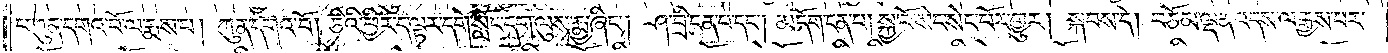པ་ཀུན་དགའ་བོ་ལ་རྨས་པ། ཀུན་དགའ་བོ། ཅིའི་ཕྱིར་ད་ལྟར་དགེ་སློང་དག་ལུས་རྨྱ་ཞིང༌། ཤ་བྲི་ངན་པ་དང༌། མདོག་ངན་པ། སྐྱ་བོ་སེང་སེང་པོར་གྱུར། སྐབས་དེ། བཅོམ་ལྡན་འདས་ལ་རྒྱས་པར་
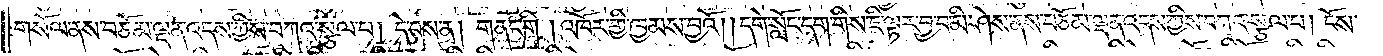གསོལ་ནས་བཅོམ་ལྡན་འདས་ཀྱིས་བཀའ་སྩལ་པ། དེ་བས་ན། གནང་གི། འཁོར་གྱི་ཁྱམས་བྱའོ། །དགེ་སློང་དག་གིས་ཇི་ལྟར་བྱ་བ་མི་ཤེས་ནས་བཅོམ་ལྡན་འདས་ཀྱིས་བཀའ་སྩལ་པ། ངོས་
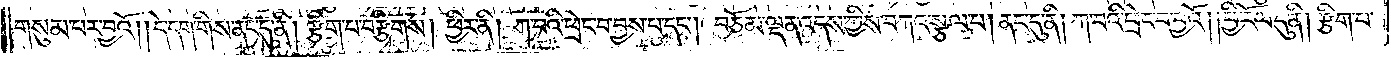གསུམ་པར་བྱའོ། །དེ་དག་གིས་ནང་དུ་ནི། རྩིག་པ་བརྩིགས། ཕྱིར་ནི། ཀ་བའི་ཕྲེང་བ་བྱས་པ་དང༌། བཅོམ་ལྡན་འདས་ཀྱིས་བཀའ་སྩལ་པ། ནང་དུ་ནི། ཀ་བའི་ཕྲེང་བ་བྱའོ། །ཕྱི་རོལ་དུ་ནི། རྩིག་པ་
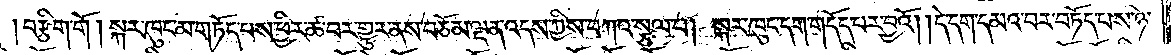བརྩིག་གོ །སྐར་ཁུང་མ་གཏོད་པས་ཕྱིར་ཚ་བར་གྱུར་ནས་བཅོམ་ལྡན་འདས་ཀྱིས་བཀའ་སྩལ་པ། སྐར་ཁུང་དག་གདོད་པར་བྱའོ། །དེ་དག་དམའ་བར་བཏོད་པས་ཉེ་
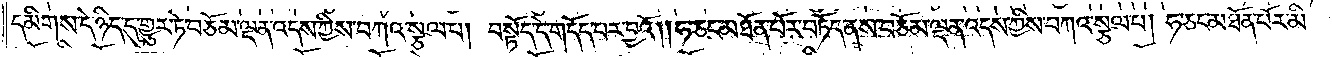དམིགས་དེ་ཉིད་དུ་གྱུར་ཏེ་བཅོམ་ལྡན་འདས་ཀྱིས་བཀའ་སྩལ་པ། བསྟོད་དེ་གདོད་པར་བྱའོ། །ཧ་ཅང་མཐོན་པོར་བཏོད་ནས་བཅོམ་ལྡན་འདས་ཀྱིས་བཀའ་སྩལ་པ། ཧ་ཅང་མཐོན་པོར་མི་
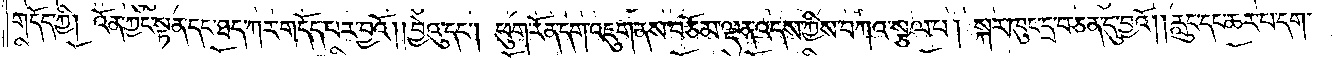གདོད་ཀྱི། འོན་ཀྱང་སྟན་དང་ཐད་ཀར་གདོད་པར་བྱའོ། །བྱེའུ་དང༌། ཕུག་རོན་དག་འཇུག་ནས་བཅོམ་ལྡན་འདས་ཀྱིས་བཀའ་སྩལ་པ། སྐར་ཁུང་དྲ་བ་ཅན་དུ་བྱའོ། །རླུང་དང་ཆར་པ་དག་
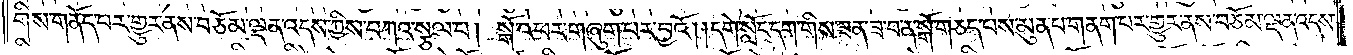གིས་གནོད་པར་གྱུར་ནས་བཅོམ་ལྡན་འདས་ཀྱིས་བཀའ་སྩལ་པ། སྒོ་འཕར་གཞུག་པར་བྱའོ། །དགེ་སློང་དག་གིས་ཟན་ཟ་བ་ན་སྒོ་གཅད་པས་མུན་པ་གནག་པར་གྱུར་ནས་བཅོམ་ལྡན་འདས་
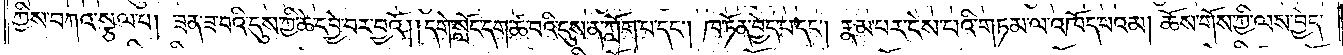ཀྱིས་བཀའ་སྩལ་པ། ཟན་ཟ་བའི་དུས་ཀྱི་ཚེ་དབྱེ་བར་བྱའོ། །དགེ་སློང་དག་ཚ་བའི་དུས་ན་ཀློག་པ་དང༌། ཁ་ཏོན་བྱེད་པ་དང༌། རྣམ་པར་ངེས་པའི་གཏམ་ལ་འཁོད་པའམ། ཆོས་གོས་ཀྱི་ལས་བྱེད་
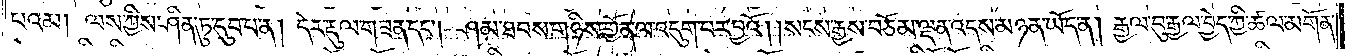པའམ། ལས་ཀྱི་ཤིན་ཏུ་དུབ་པ་ན། དེར་རྡུལ་གཟན་དང༌། ཤམ་ཐབས་གཉིས་གྱོན་ལ་འདུག་པར་བྱའོ། །སངས་རྒྱས་བཅོམ་ལྡན་འདས་མཉན་ཡོད་ན། རྒྱལ་བུ་རྒྱལ་བྱེད་ཀྱི་ཆལ་མགོན་
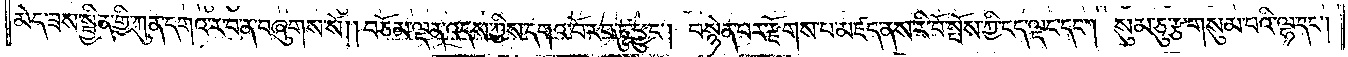མེད་ཟས་སྦྱིན་གྱི་ཀུན་དགའ་ར་བ་ན་བཞུགས་སོ། །བཅོམ་ལྡན་འདས་ཀྱིས་དགའ་བོ་རབ་ཏུ་ཕྱུང༌། བསྙེན་པར་རྫོགས་པ་མཛད་ནས་རི་བོ་སྤོས་ཀྱི་ངད་ལྡང་དང༌། སུམ་ཅུ་རྩ་གསུམ་པའི་ལྷ་དང༌།
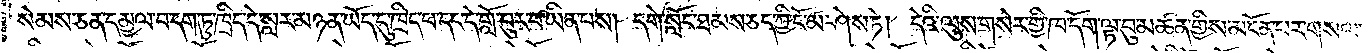སེམས་ཅན་དམྱལ་བ་དག་ཏུ་ཁྲིད་དེ་སླར་མཉན་ཡོད་དུ་ཁྲིད་པ་དང་དེ་གློ་བུར་བ་ཡིན་པས། དགེ་སློང་ཐམས་ཅད་ཀྱི་ངོ་མ་ཤེས་ཏེ། དེའི་ལུས་གསེར་གྱི་ཁ་དོག་ལྟ་བུ་མཚན་གྱིས་མངོན་པར་གསལ་
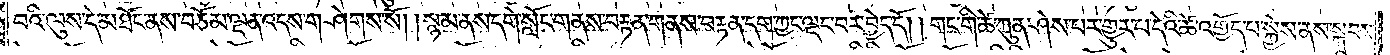བའི་ལུས་དེ་མཐོང་ནས་བཅོམ་ལྡན་འདས་གཤེགས་སོ། །སྙམ་ནས་དགེ་སློང་གནས་བརྟན་གནས་བརྟན་དག་ཀྱང་ལྡང་བར་བྱེད་དོ། །གང་གི་ཚེ་ཀུན་ཤེས་པར་གྱུར་པ་དེའི་ཚེ་འགྱོད་པ་སྐྱེས་ནས་སྐབས་
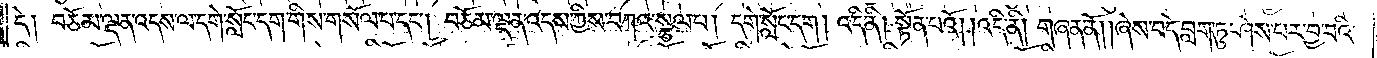དེ། བཅོམ་ལྡན་འདས་ལ་དགེ་སློང་དག་གིས་གསོལ་པ་དང༌། བཅོམ་ལྡན་འདས་ཀྱིས་བཀའ་སྩལ་པ། དགེ་སློང་དག །འདི་ནི། སྟོན་པའོ། །འདི་ནི། གཞན་ནོ། །ཞེས་བདེ་བླག་ཏུ་ཤེས་པར་བྱ་བའི་
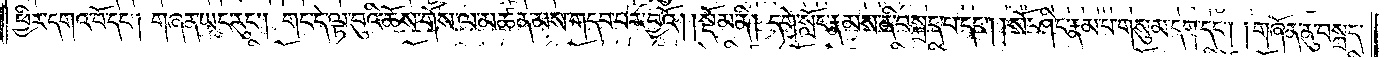ཕྱིར་དགའ་བོ་དང༌། གཞན་ཡང་རུང༌། གང་དེ་ལྟ་བུའི་ཆོས་གོས་ལ་མཚན་མས་གདབ་པར་བྱའོ།    །སྡོམ་ནི། དགེ་སློང་རྣམས་ནི་བསྐྲད་པ་དང༌། སོ་ཤིང་རྣམ་པ་གསུམ་དག་དང༌། གཞོན་ནུ་བསྐྲད་
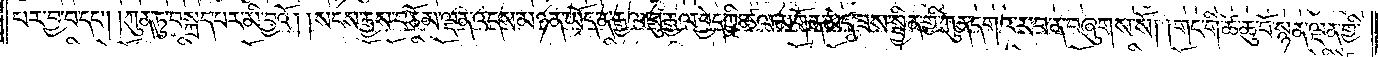པར་བྱ་བ་དང༌། ཀུན་ཏུ་བསྐྲད་པར་མི་བྱའོ། །སངས་རྒྱས་བཅོམ་ལྡན་འདས་མཉན་ཡོད་ན་རྒྱལ་བུ་རྒྱལ་བྱེད་ཀྱི་ཚལ་མགོན་མེད་ཟས་སྦྱིན་གྱི་ཀུན་དགའ་ར་བ་ན་བཞུགས་སོ། །གང་གི་ཚེ་ཆུ་བོ་སྙན་ལྡན་གྱི་
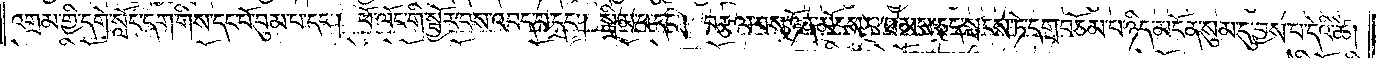འགྲམ་གྱི་དགེ་སློང་དག་གིས་དང་པོ་བུམ་པ་དང༌། ཕོ་ལོང་གི་སྦྱོར་བས་འབད་པ་དང༌། སྒྲིམ་པ་དང༌། བརྩལ་བས་ཉོན་མོངས་པ་ཐམས་ཅད་སྤངས་ཏེ་དགྲ་བཅོམ་པ་ཉིད་མངོན་སུམ་དུ་བྱས་པ་དེའི་ཚེ།
